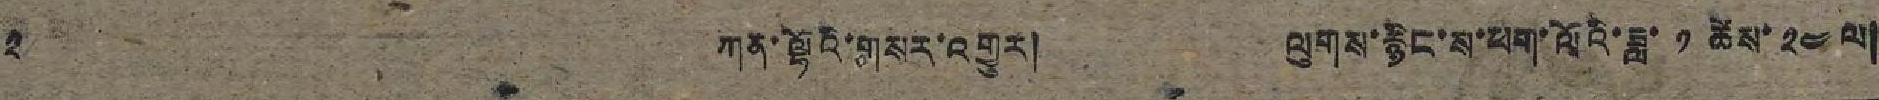༢ ཀན་ལྷོའི་གསར་འགྱུར། ལུགས་རྙིང་ས་ཕག་ལོའི་ཟླ་ ༡ ཚེས་ ༢༤ ལ།
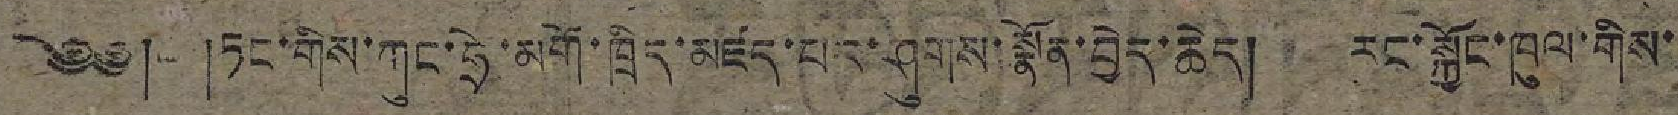༄༅། །ཏང་གིས་ཀུང་ཧྲེ་མགོ་ཁྲིད་མཛད་པར་ཤུགས་སྣོན་བྱེད་ཆེད། རང་སྐྱོང་ཁུལ་གིས་
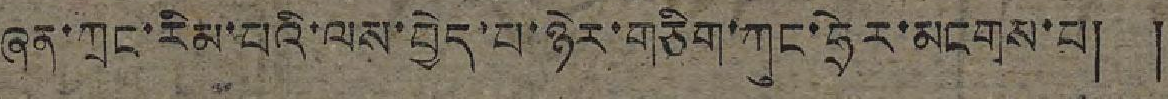ཞན་ཀྲང་རིམ་པའི་ལས་བྱེད་པ་ཉེར་གཅིག་ཀུང་ཧྲེར་མངགས་པ། །
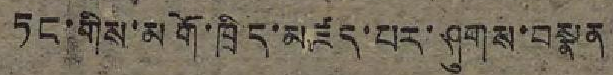ཏང་གིས་མགོ་ཁྲིད་མཛད་པར་ཤུགས་བསྣན
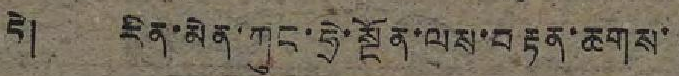ཏེ། རིན་མེན་ཀུང་ཧྲེ་སྔོན་ལས་བརྟན་ཆགས་
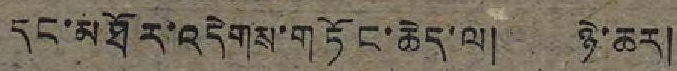དང་མཐོར་འདེགས་གཏོང་ཆེད་ལ། ཉེ་ཆར།
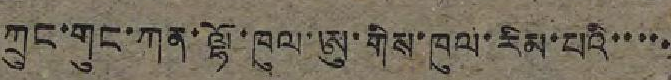ཀྲུང་གུང་ཀན་ལྷོ་ཁུལ་ཨུ་གིས་ཁུལ་རིམ་པའི་་་་་
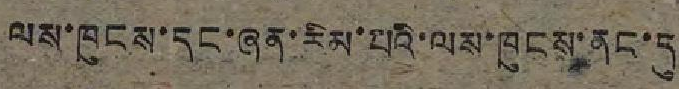ལས་ཁུངས་དང་ཞན་རིམ་པའི་ལས་ཁུངས་ནང་དུ
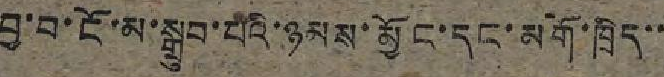བྱ་བ་ངོ་མ་སྒྲུབ་པའི་ཉམས་མྱོང་དང་མགོ་ཁྲིད་་
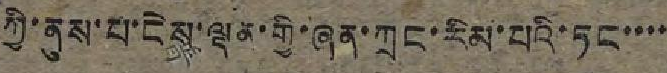ཀྱི་ནུས་པ་ངེས་ལྡན་གྱི་ཞན་ཀྲང་རིམ་པའི་ཏང་་་་
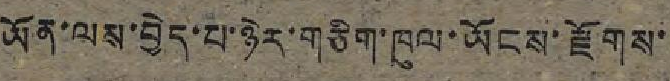ཡོན་ལས་བྱེད་པ་ཉེར་གཅིག་ཁུལ་ཡོངས་རྫོགས་
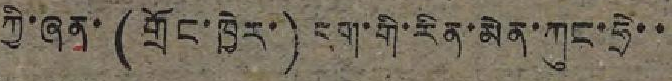ཀྱི་ཞན་ (གྲོང་ཁྱེར་) དག་གི་རིན་མེན་ཀུང་ཧྲེ་་
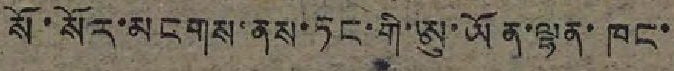སོ་སོར་མངགས་ནས་ཏང་གི་ཨུ་ཡོན་ལྷན་ཁང་
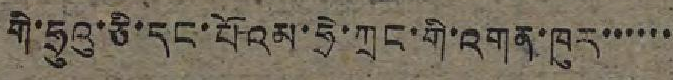གི་ཧྲུའུ་ཅི་དང་པོའམ་ཧྲེ་ཀྲང་གི་འགན་ཁུར་་་་་་
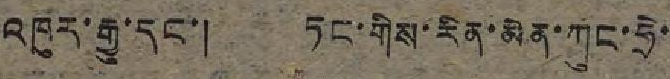འཁུར་རྒྱུ་དང་། ཏང་གིས་རིན་མེན་ཀུང་ཧྲེ་
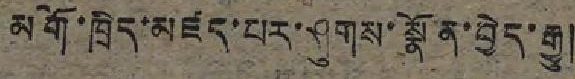མགོ་ཁྲིད་མཛད་པར་ཤུགས་སྣོན་བྱེད་རྒྱུ།
